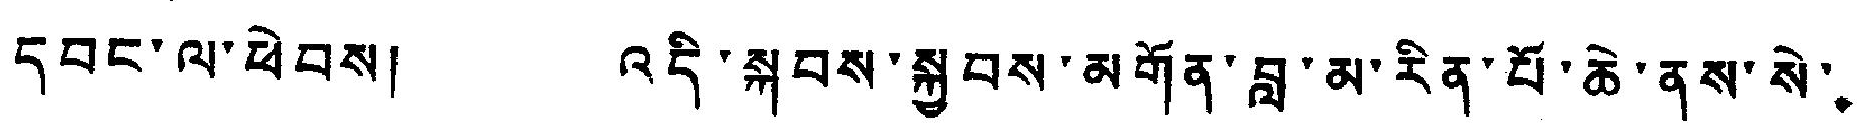དབང་ལ་ཕེབས། འདི་སྐབས་སྐྱབས་མགོན་བླ་མ་རིན་པོ་ཆེ་ནས་སེ་
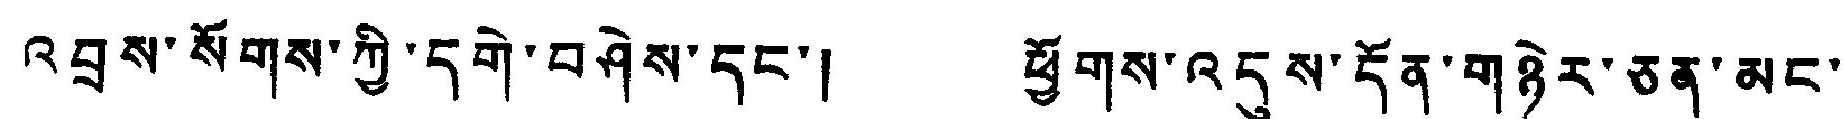འབྲས་སོགས་ཀྱི་དགེ་བཤེས་དང་། ཕྱོགས་འདུས་དོན་གཉེར་ཅན་མང་
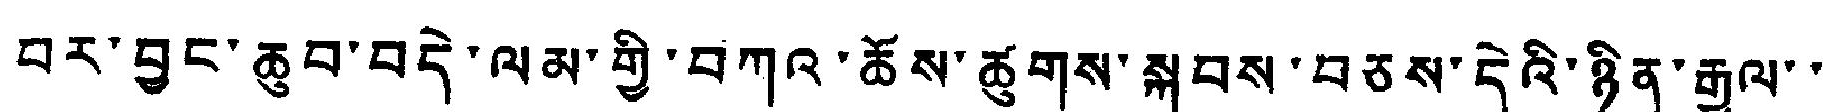བར་བྱང་ཆུབ་བདེ་ལམ་གྱི་བཀའ་ཆོས་ཚུགས་སྐབས་བཅས་དེའི་ཉིན་རྒྱལ་་
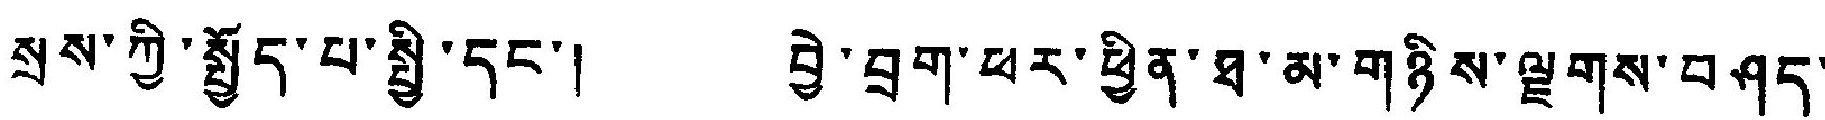སྲས་ཀྱི་སྤྱོད་པ་སྤྱི་དང་། བྱེ་བྲག་ཕར་ཕྱིན་ཐ་མ་གཉིས་ལྗགས་བཤད་
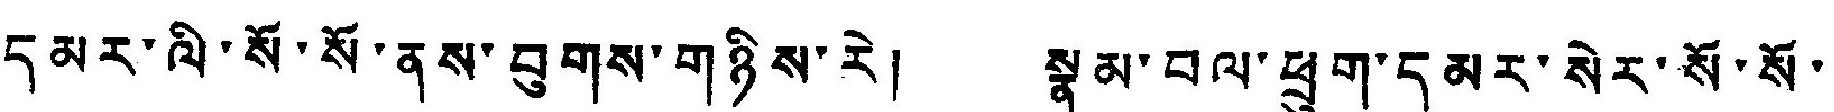དམར་ལི་སོ་སོ་ནས་བུབས་གཉིས་རེ། སྣམ་བལ་ཕྲུག་དམར་སེར་སོ་སོ་
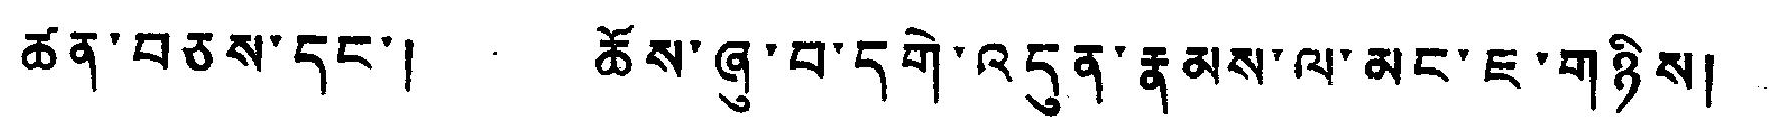ཚན་བཅས་དང་། ཆོས་ཞུ་བ་དགེ་འདུན་རྣམས་ལ་མང་ཇ་གཉིས།
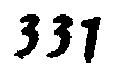331
